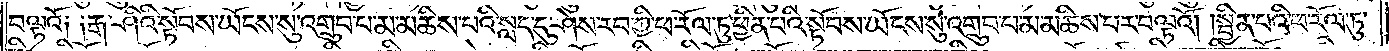བལྟའོ༑ ༑རྒ་ཤིའི་སྟོབས་ཡོངས་སུ་འགྲུབ་པ་མ་མཆིས་པའི་སླད་དུ་ཤེས་རབ་ཀྱི་ཕ་རོལ་ཏུ་ཕྱིན་པའི་སྟོབས་ཡོངས་སུ་འགྲུབ་པ་མ་མཆིས་པར་བལྟའོ། །སྦྱིན་པའི་ཕ་རོལ་ཏུ་
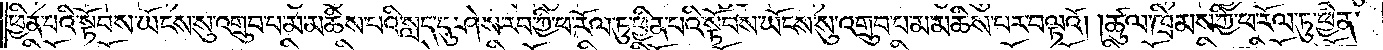ཕྱིན་པའི་སྟོབས་ཡོངས་སུ་འགྲུབ་པ་མ་མཆིས་པའི་སླད་དུ་ཤེས་རབ་ཀྱི་ཕ་རོལ་ཏུ་ཕྱིན་པའི་སྟོབས་ཡོངས་སུ་འགྲུབ་པ་མ་མཆིས་པར་བལྟའོ། །ཚུལ་ཁྲིམས་ཀྱི་ཕ་རོལ་ཏུ་ཕྱིན་
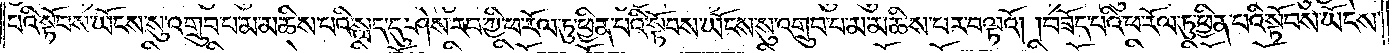པའི་སྟོབས་ཡོངས་སུ་འགྲུབ་པ་མ་མཆིས་པའི་སླད་དུ་ཤེས་རབ་ཀྱི་ཕ་རོལ་ཏུ་ཕྱིན་པའི་སྟོབས་ཡོངས་སུ་འགྲུབ་པ་མ་མཆིས་པར་བལྟའོ། །བཟོད་པའི་ཕ་རོལ་ཏུ་ཕྱིན་པའི་སྟོབས་ཡོངས་
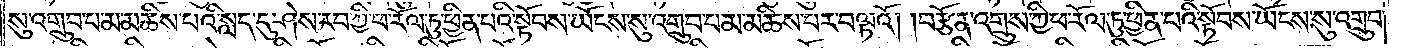སུ་འགྲུབ་པ་མ་མཆིས་པའི་སླད་དུ་ཤེས་རབ་ཀྱི་ཕ་རོལ་ཏུ་ཕྱིན་པའི་སྟོབས་ཡོངས་སུ་འགྲུབ་པ་མ་མཆིས་པར་བལྟའོ། །བརྩོན་འགྲུས་ཀྱི་ཕ་རོལ་ཏུ་ཕྱིན་པའི་སྟོབས་ཡོངས་སུ་འགྲུབ་
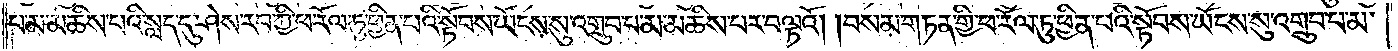པ་མ་མཆིས་པའི་སླད་དུ་ཤེས་རབ་ཀྱི་ཕ་རོལ་ཏུ་ཕྱིན་པའི་སྟོབས་ཡོངས་སུ་འགྲུབ་པ་མ་མཆིས་པར་བལྟའོ། །བསམ་གཏན་གྱི་ཕ་རོལ་ཏུ་ཕྱིན་པའི་སྟོབས་ཡོངས་སུ་འགྲུབ་པ་མ་
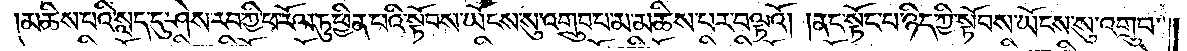མཆིས་པའི་སླད་དུ་ཤེས་རབ་ཀྱི་ཕ་རོལ་ཏུ་ཕྱིན་པའི་སྟོབས་ཡོངས་སུ་འགྲུབ་པ་མ་མཆིས་པར་བལྟའོ། །ནང་སྟོང་པ་ཉིད་ཀྱི་སྟོབས་ཡོངས་སུ་འགྲུབ་
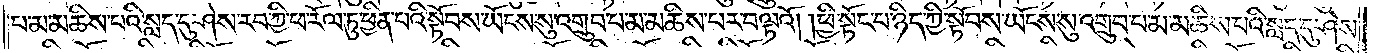པ་མ་མཆིས་པའི་སླད་དུ་ཤེས་རབ་ཀྱི་ཕ་རོལ་ཏུ་ཕྱིན་པའི་སྟོབས་ཡོངས་སུ་འགྲུབ་པ་མ་མཆིས་པར་བལྟའོ། །ཕྱི་སྟོང་པ་ཉིད་ཀྱི་སྟོབས་ཡོངས་སུ་འགྲུབ་པ་མ་མཆིས་པའི་སླད་དུ་ཤེས་
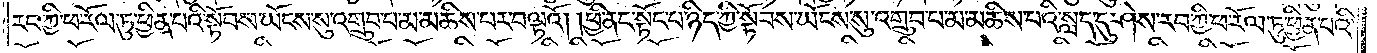རབ་ཀྱི་ཕ་རོལ་ཏུ་ཕྱིན་པའི་སྟོབས་ཡོངས་སུ་འགྲུབ་པ་མ་མཆིས་པར་བལྟའོ། །ཕྱི་ནང་སྟོང་པ་ཉིད་ཀྱི་སྟོབས་ཡོངས་སུ་འགྲུབ་པ་མ་མཆིས་པའི་སླད་དུ་ཤེས་རབ་ཀྱི་ཕ་རོལ་ཏུ་ཕྱིན་པའི་
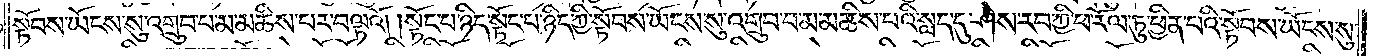སྟོབས་ཡོངས་སུ་འགྲུབ་པ་མ་མཆིས་པར་བལྟའོ། །སྟོང་པ་ཉིད་སྟོང་པ་ཉིད་ཀྱི་སྟོབས་ཡོངས་སུ་འགྲུབ་པ་མ་མཆིས་པའི་སླད་དུ་ཤེས་རབ་ཀྱི་ཕ་རོལ་ཏུ་ཕྱིན་པའི་སྟོབས་ཡོངས་སུ་
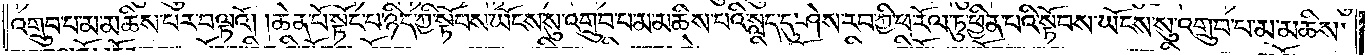འགྲུབ་པ་མ་མཆིས་པར་བལྟའོ། །ཆེན་པོ་སྟོང་པ་ཉིད་ཀྱི་སྟོབས་ཡོངས་སུ་འགྲུབ་པ་མ་མཆིས་པའི་སླད་དུ་ཤེས་རབ་ཀྱི་ཕ་རོལ་ཏུ་ཕྱིན་པའི་སྟོབས་ཡོངས་སུ་འགྲུབ་པ་མ་མཆིས་
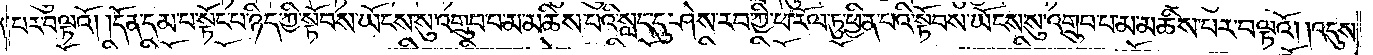པར་བལྟའོ། །དོན་དམ་པ་སྟོང་པ་ཉིད་ཀྱི་སྟོབས་ཡོངས་སུ་འགྲུབ་པ་མ་མཆིས་པའི་སླད་དུ་ཤེས་རབ་ཀྱི་ཕ་རོལ་ཏུ་ཕྱིན་པའི་སྟོབས་ཡོངས་སུ་འགྲུབ་པ་མ་མཆིས་པར་བལྟའོ། །འདུས་
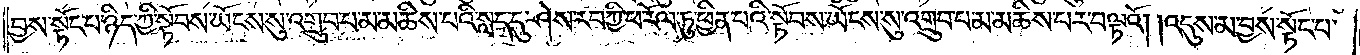བྱས་སྟོང་པ་ཉིད་ཀྱི་སྟོབས་ཡོངས་སུ་འགྲུབ་པ་མ་མཆིས་པའི་སླད་དུ་ཤེས་རབ་ཀྱི་ཕ་རོལ་ཏུ་ཕྱིན་པའི་སྟོབས་ཡོངས་སུ་འགྲུབ་པ་མ་མཆིས་པར་བལྟའོ། །འདུས་མ་བྱས་སྟོང་པ་
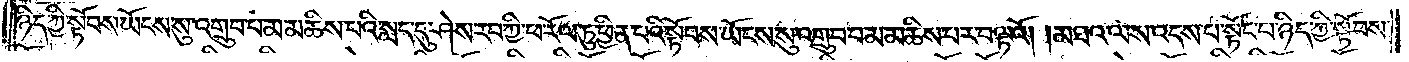ཉིད་ཀྱི་སྟོབས་ཡོངས་སུ་འགྲུབ་པ་མ་མཆིས་པའི་སླད་དུ་ཤེས་རབ་ཀྱི་ཕ་རོལ་ཏུ་ཕྱིན་པའི་སྟོབས་ཡོངས་སུ་འགྲུབ་པ་མ་མཆིས་པར་བལྟའོ། །མཐའ་ལས་འདས་པ་སྟོང་པ་ཉིད་ཀྱི་སྟོབས་
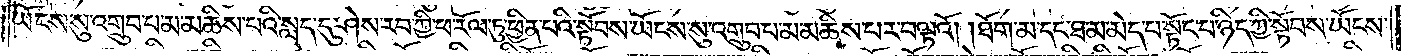ཡོངས་སུ་འགྲུབ་པ་མ་མཆིས་པའི་སླད་དུ་ཤེས་རབ་ཀྱི་ཕ་རོལ་ཏུ་ཕྱིན་པའི་སྟོབས་ཡོངས་སུ་འགྲུབ་པ་མ་མཆིས་པར་བལྟའོ། །ཐོག་མ་དང་ཐ་མ་མེད་པ་སྟོང་པ་ཉིད་ཀྱི་སྟོབས་ཡོངས་
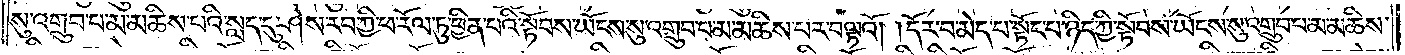སུ་འགྲུབ་པ་མ་མཆིས་པའི་སླད་དུ་ཤེས་རབ་ཀྱི་ཕ་རོལ་ཏུ་ཕྱིན་པའི་སྟོབས་ཡོངས་སུ་འགྲུབ་པ་མ་མཆིས་པར་བལྟའོ། །དོར་བ་མེད་པ་སྟོང་པ་ཉིད་ཀྱི་སྟོབས་ཡོངས་སུ་འགྲུབ་པ་མ་མཆིས་
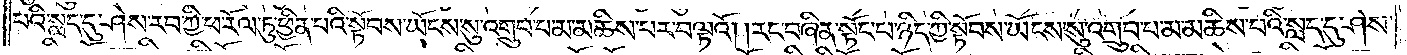པའི་སླད་དུ་ཤེས་རབ་ཀྱི་ཕ་རོལ་ཏུ་ཕྱིན་པའི་སྟོབས་ཡོངས་སུ་འགྲུབ་པ་མ་མཆིས་པར་བལྟའོ། །རང་བཞིན་སྟོང་པ་ཉིད་ཀྱི་སྟོབས་ཡོངས་སུ་འགྲུབ་པ་མ་མཆིས་པའི་སླད་དུ་ཤེས་
